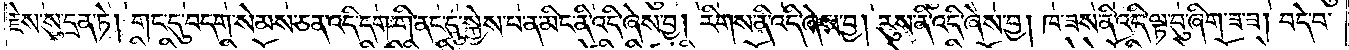རྗེས་སུ་དྲན་ཏེ། གང་དུ་བདག་སེམས་ཅན་འདི་དག་གི་ནང་དུ་སྐྱེས་པ་ན་མིང་ནི་འདི་ཞེས་བྱ། རིགས་ནི་འདི་ཞེས་བྱ། རུས་ནི་འདི་ཞེས་བྱ། ཁ་ཟས་ནི་འདི་ལྟ་བུ་ཞིག་ཟ་ཟ། བདེ་བ་
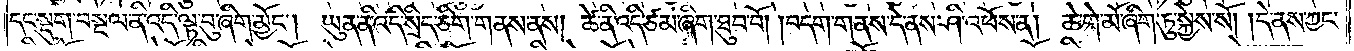དང་སྡུག་བསྔལ་ནི་འདི་ལྟ་བུ་ཞིག་མྱོང༌། ཡུན་ནི་འདི་སྲིད་ཅིག་གནས་ནས། ཚེ་ནི་འདི་ཙམ་ཞིག་ཐུབ་བོ། །བདག་གནས་དེ་ནས་ཤི་འཕོས་ན། ཆེ་གེ་མོ་ཞིག་ཏུ་སྐྱེས་སོ། །དེ་ནས་ཀྱང་
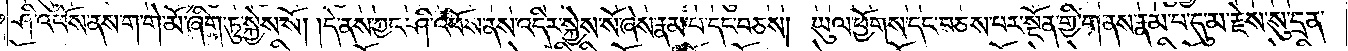ཤི་འཕོས་ནས་ག་གེ་མོ་ཞིག་ཏུ་སྐྱེས་སོ། །དེ་ནས་ཀྱང་ཤི་འཕོས་ནས་འདིར་སྐྱེས་སོ་ཞེས་རྣམ་པ་དང་བཅས། ཡུལ་ཕྱོགས་དང་བཅས་པར་སྔོན་གྱི་གནས་རྣམ་པ་དུ་མ་རྗེས་སུ་དྲན་
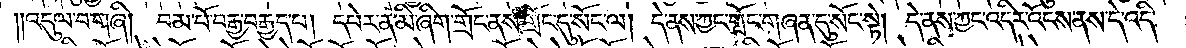ནོ༎  ༎འདུལ་བ་གཞི། བམ་པོ་བརྒྱ་བརྒྱད་པ། དཔེར་ན་མི་ཞིག་གྲོང་ནས་གྲོང་དུ་སོང་ལ། དེ་ནས་ཀྱང་གྲོང་གཞན་དུ་སོང་སྟེ། དེ་ནས་ཀྱང་འདིར་འོངས་ནས་དེ་འདི་
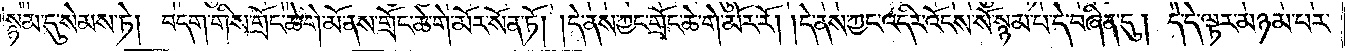སྙམ་དུ་སེམས་ཏེ། བདག་གིས་གྲོང་ཆེ་གེ་མོ་ནས་གྲོང་ཆེ་གེ་མོར་སོན་ཏོ། །དེ་ནས་ཀྱང་གྲོང་ཆེ་གེ་མོར་རོ། །དེ་ནས་ཀྱང་འདིར་འོངས་སོ་སྙམ་པ་དེ་བཞིན་དུ། །དེ་དེ་ལྟར་མཉམ་པར་
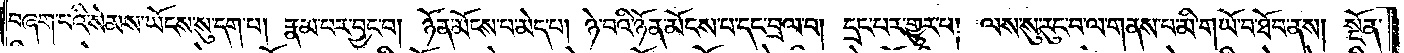བཞག་པའི་སེམས་ཡོངས་སུ་དག་པ། རྣམ་པར་བྱང་བ། ཉོན་མོངས་པ་མེད་པ། ཉེ་བའི་ཉོན་མོངས་པ་དང་བྲལ་བ། དྲང་པར་གྱུར་པ། ལས་སུ་རུང་བ་ལ་གནས་པ་མི་གཡོ་བ་ཐོབ་ནས། སྔོན་
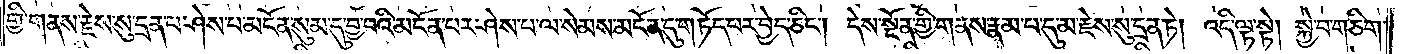གྱི་གནས་རྗེས་སུ་དྲན་པ་ཤེས་པ་མངོན་སུམ་དུ་བྱ་བའི་མངོན་པར་ཤེས་པ་ལ་སེམས་མངོན་དུ་གཏོད་པར་བྱེད་ཅིང༌། དེས་སྔོན་གྱི་གནས་རྣམ་པ་དུ་མ་རྗེས་སུ་དྲན་ཏེ། འདི་ལྟ་སྟེ། སྐྱེ་བ་གཅིག་
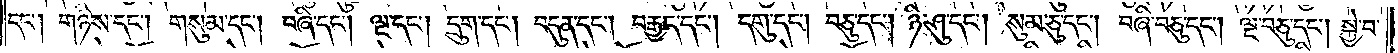དང༌། གཉིས་དང༌། གསུམ་དང༌། བཞི་དང༌། ལྔ་དང༌། དྲུག་དང༌། བདུན་དང༌། བརྒྱད་དང༌། དགུ་དང༌། བཅུ་དང༌། ཉི་ཤུ་དང༌། སུམ་ཅུ་དང༌། བཞི་བཅུ་དང༌། ལྔ་བཅུ་དང༌། སྐྱེ་བ་
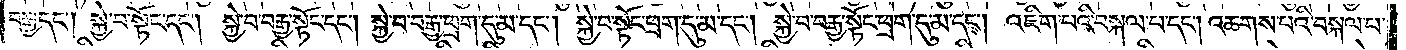བརྒྱ་དང༌། སྐྱེ་བ་སྟོང་དང༌། སྐྱེ་བ་བརྒྱ་སྟོང་དང༌། སྐྱེ་བ་བརྒྱ་ཕྲག་དུ་མ་དང༌། སྐྱེ་བ་སྟོང་ཕྲག་དུ་མ་དང༌། སྐྱེ་བ་བརྒྱ་སྟོང་ཕྲག་དུ་མ་དང༌། འཇིག་པའི་བསྐལ་པ་དང༌། འཆགས་པའི་བསྐལ་པ་
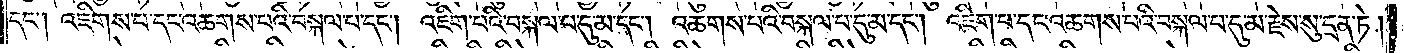དང༌། འཇིགས་པ་དང་འཆགས་པའི་བསྐལ་པ་དང༌། འཇིག་པའི་བསྐལ་པ་དུ་མ་དང༌། འཆགས་པའི་བསྐལ་པ་དུ་མ་དང༌། འཇིག་པ་དང་འཆགས་པའི་བསྐལ་པ་དུ་མ་རྗེས་སུ་དྲན་ཏེ།
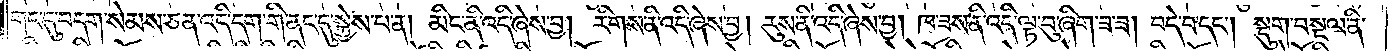གང་དུ་བདག་སེམས་ཅན་འདི་དག་གི་ནང་དུ་སྐྱེས་པ་ན། མིང་ནི་འདི་ཞེས་བྱ། རིགས་ནི་འདི་ཞེས་བྱ། རུས་ནི་འདི་ཞེས་བྱ། ཁ་ཟས་ནི་འདི་ལྟ་བུ་ཞིག་ཟ་ཟ། བདེ་བ་དང༌། སྡུག་བསྔལ་ནི་
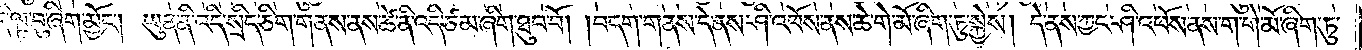འདི་ལྟ་བུ་ཞིག་མྱོང༌། ཡུན་ནི་འདི་སྲིད་ཅིག་གནས་ནས་ཚེ་ནི་འདི་ཙམ་ཞིག་ཐུབ་བོ། །བདག་གནས་དེ་ནས་ཤི་འཕོས་ནས་ཆེ་གེ་མོ་ཞིག་ཏུ་སྐྱེས། དེ་ནས་ཀྱང་ཤི་འཕོས་ནས་ག་གེ་མོ་ཞིག་ཏུ་
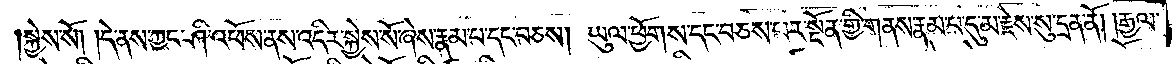སྐྱེས་སོ། །དེ་ནས་ཀྱང་ཤི་འཕོས་ནས་འདིར་སྐྱེས་སོ་ཞེས་རྣམ་པ་དང་བཅས། ཡུལ་ཕྱོགས་དང་བཅས་པར་སྔོན་གྱི་གནས་རྣམ་པ་དུ་མ་རྗེས་སུ་དྲན་ནོ། །རྒྱལ་
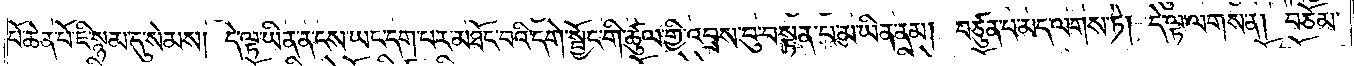པོ་ཆེན་པོ་ཇི་སྙམ་དུ་སེམས། དེ་ལྟ་ཡིན་ན་ངས་ཡང་དག་པར་མཐོང་བའི་དགེ་སྦྱོང་གི་ཚུལ་གྱི་འབྲས་བུ་བསྟན་པ་མ་ཡིན་ནམ། བཙུན་པ་མད་ལགས་ཏེ། དེ་ལྟ་ལགས་ན། བཅོམ་
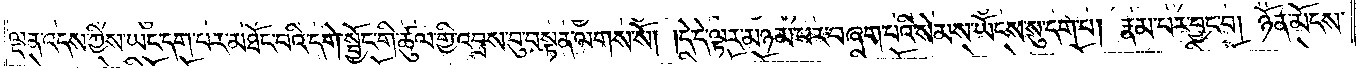ལྡན་འདས་ཀྱིས་ཡང་དག་པར་མཐོང་བའི་དགེ་སྦྱོང་གི་ཚུལ་གྱི་འབྲས་བུ་བསྟན་ལགས་སོ། །དེ་དེ་ལྟར་མཉམ་པར་བཞག་པའི་སེམས་ཡོངས་སུ་དག་པ། རྣམ་པར་བྱང་བ། ཉོན་མོངས་
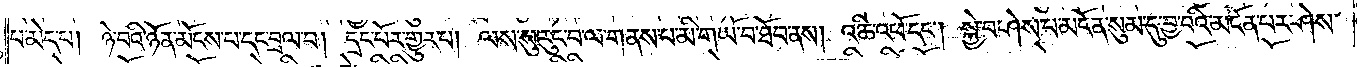པ་མེད་པ། ཉེ་བའི་ཉོན་མོངས་པ་དང་བྲལ་བ། དྲང་པོར་གྱུར་པ། ལས་སུ་རུང་བ་ལ་གནས་པ་མི་གཡོ་བ་ཐོབ་ནས། འཆི་འཕོ་དང༌། སྐྱེ་བ་ཤེས་པ་མངོན་སུམ་དུ་བྱ་བའི་མངོན་པར་ཤེས་
